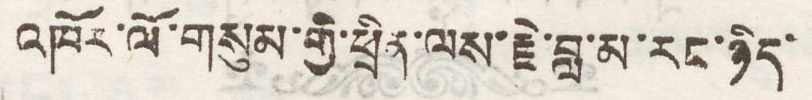འཁོར་ལོ་གསུམ་གྱི་ཕྲིན་ལས་རྗེ་བླ་མ་རང་ཉིད་
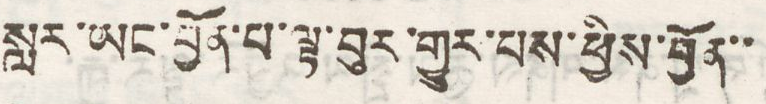སླར་ཡང་བྱོན་པ་ལྟ་བུར་གྱུར་པས་ཕྱིས་བྱོན་་་
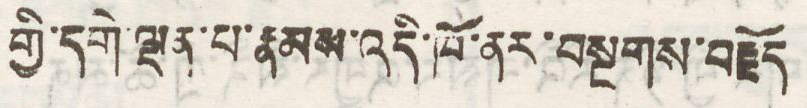གྱི་དགེ་ལྡན་པ་རྣམས་འདི་ཁོ་ནར་བསྔགས་བརྗོད
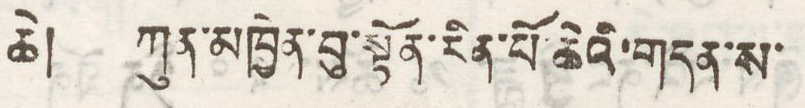ཆེ། ཀུན་མཁྱེན་བུ་སྟོན་རིན་པོ་ཆེའི་གདན་ས་
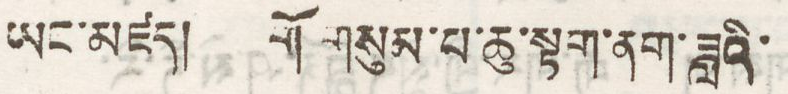ཡང་མཛད། གོ གསུམ་པ་ཆུ་སྟག་ནག་ཟླའི་
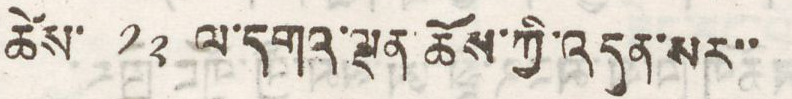ཚེས་ ༡༢ ལ་དགའ་ལྡན་ཆོས་ཀྱི་འདུན་སར་་
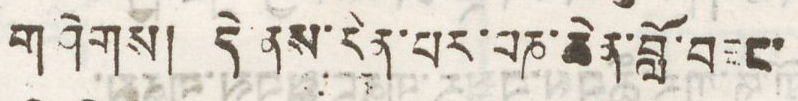གཤེགས། ་དེ་ནས་རིན་པར་པཎ་ཆེན་བློ་བཟང་
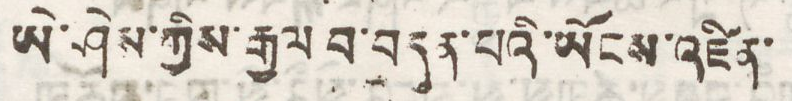ཡེ་ཤེས་ཀྱིས་རྒྱལ བ་བདུན་པའི་ཡོངས་འཛིན་
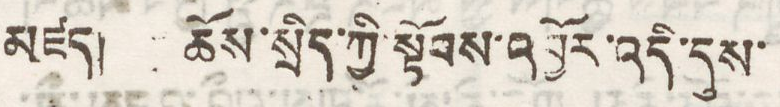མཛད། ཆོས་སྲིད་ཀྱི་སྟོབས་འབྱོར་འདི་དུས་
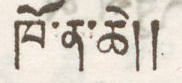ཁོ་ན་ཆེ།།
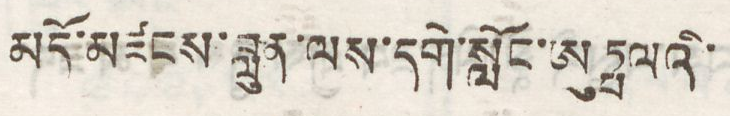མདོ་མཛངས་བླུན་ལས་དགེ་སློང་ཨུཏྤལའི་
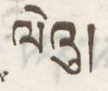ལེའུ།
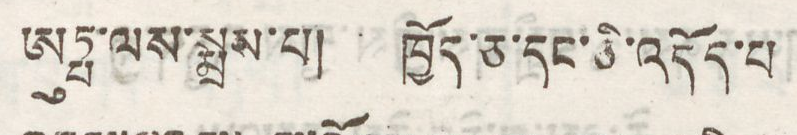ཨུཏྤ་ལས་སྨྲས་པ། ཁྱོད་ཅ་དང་ཅི་འདོད་པ
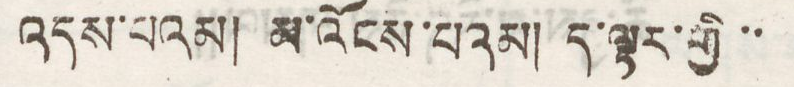འདས་པའམ། མ་འོངས་པའམ། ད་ལྟར་གྱི་་
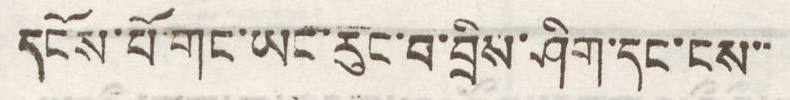དངོས་པོ་གང་ཡང་རུང་བ་བྲིས་ཤིག་དང་ངས་་
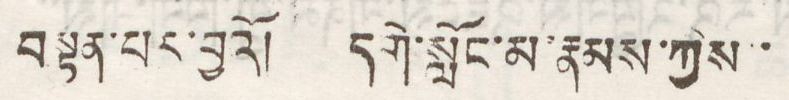བསྟན་པར་བྱའོ། དགེ་སློང་མ་རྣམས་ཀྱིས་་
